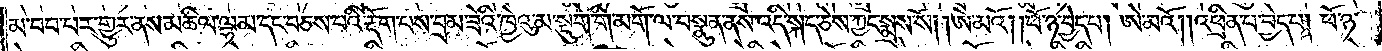མ་བབ་པར་གྱུར་ནས་མཆིལ་ལྷམ་དང་བཅས་པའི་རྡོག་པས་བྲམ་ཟེའི་ཁྱེའུ་མ་སྡུག་གི་མགོ་ལ་བསྣུན་ནས་འདི་སྐད་ཅེས་ཀྱང་སྨྲས་སོ། །ཨེ་མའོ། །ཕོ་ཉ་བྱེད་པ། ཨེ་མའོ། །འཕྲིན་པ་བྱེད་པ། ཕོ་ཉ་
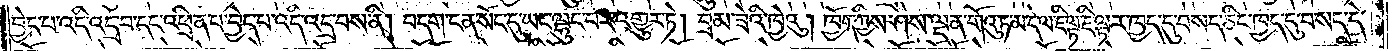བྱེད་པ་འདི་འདྲ་བ་དད་འཕྲིན་པ་བྱེད་པ་འདི་འདྲ་བས་ནི། བདག་ངན་སོང་དུ་ཡང་ལྷུང་བར་འགྱུར་ཏེ། བྲམ་ཟེའི་ཁྱེའུ། ཁྱོད་ཀྱིས་ཤེས་ལྡན་གོའུ་ཏ་མ་དེ་ལ་ཇི་ལྟ་ཇི་ལྟར་ཁྱད་དུ་བསད་ཅིང་ཁྱད་དུ་བསད་དེ་
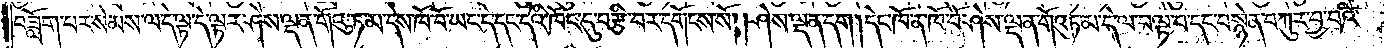བཟློག་པར་སེམས་ལ་དེ་ལྟ་དེ་ལྟར་ཤེས་ལྡན་གོའུ་ཏ་མ་དེས་ཁོ་བོ་ཡང་དེ་དང་དེའི་ཁོང་དུ་བརྩི་བར་དགོངས་སོ། །ཤེས་ལྡན་དག །དེང་ཁོ་ན་ཁོ་བོ་ཤེས་ལྡན་གོའུ་ཏ་མ་དེ་ལ་བལྟ་བ་དང་བསྙེན་བཀུར་བྱ་བའི་
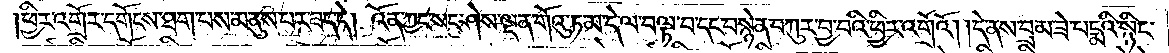།ཕྱིར་འགྲོར་དགོངས་ཐག་པས་མ་ནུས་པར་ཟད་དེ། འོན་ཀྱང་སང་ཤེས་ལྡན་གོའུ་ཏ་མ་དེ་ལ་བལྟ་བ་དང་བསྙེན་བཀུར་བྱ་བའི་ཕྱིར་འགྲོའོ། །དེ་ནས་བྲམ་ཟེ་པདྨའི་སྙིང་
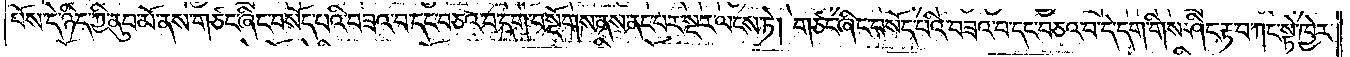པོས་དེ་ཉིད་ཀྱི་ནུབ་མོ་ནས་གཙང་ཞིང་བསོད་པའི་བཟའ་བ་དང་བཅའ་བ་དག་བསྔོགས་ནས་ནང་པར་སྔར་ལངས་ཏེ། གཙང་ཞིང་བསོད་པའི་བཟའ་བ་དང་བཅའ་བ་དེ་དག་གིས་ཤིང་རྟ་བཀང་སྟེ་ཁྱེར་
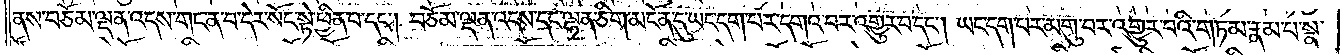ནས་བཅོམ་ལྡན་འདས་གང་ན་བ་དེར་སོང་སྟེ་ཕྱིན་པ་དང༌། བཅོམ་ལྡན་འདས་དང་ལྷན་ཅིག་མངོན་དུ་ཡང་དག་པར་དགའ་བར་འགྱུར་བ་དང༌། ཡང་དག་པར་མགུ་བར་འགྱུར་བའི་གཏམ་རྣམ་པ་སྣ་
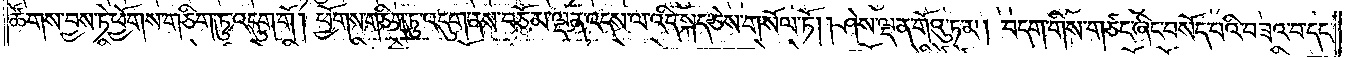ཚོགས་བྱས་ཏེ་ཕྱོགས་གཅིག་ཏུ་འདུག་གོ །ཕྱོགས་གཅིག་ཏུ་འདུག་ནས་བཅོམ་ལྡན་འདས་ལ་འདི་སྐད་ཅེས་གསོལ་ཏོ། །ཤེས་ལྡན་གོའུ་ཏ་མ། བདག་གིས་གཙང་ཞིང་བསོད་པའི་བཟའ་བ་དང་
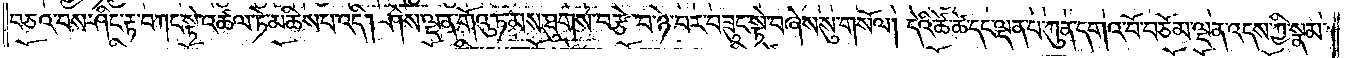བཅའ་བས་ཤིང་རྟ་བཀང་སྟེ་འཚལ་ཏེ་མཆིས་པ་འདི། ཤེས་ལྡན་གོའུ་ཏ་མས་ཐུགས་བརྩེ་བ་ཉེ་བར་བཟུང་སྟེ་བཞེས་སུ་གསོལ། དེའི་ཚེ་ཚེ་དང་ལྡན་པ་ཀུན་དགའ་བོ་བཅོམ་ལྡན་འདས་ཀྱིས་སྣམ་
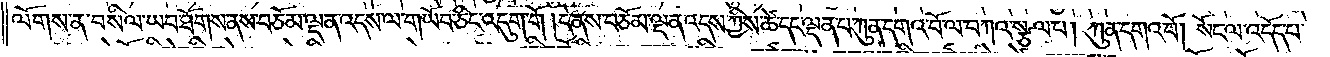ལོགས་ན་བསིལ་ཡབ་ཐོགས་ནས་བཅོམ་ལྡན་འདས་ལ་གཡོབ་ཅིང་འདུག་གོ །དེ་ནས་བཅོམ་ལྡན་འདས་ཀྱིས་ཚེ་དང་ལྡན་པ་ཀུན་དགའ་བོ་ལ་བཀའ་སྩལ་པ། ཀུན་དགའ་བོ། སོང་ལ་འདོད་པ་
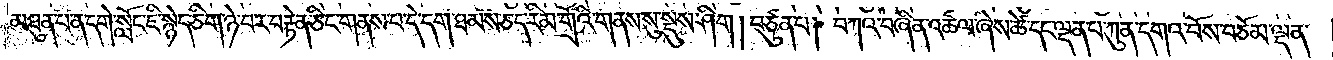མཐུན་པ་ན་དགེ་སློང་ཇི་སྙེད་ཅིག་ཉེ་བར་བརྟེན་ཅིང་གནས་པ་དེ་དག་ཐམས་ཅད་རིམ་གྲོའི་གནས་སུ་སྡུས་ཤིག །བཙུན་པ། བཀའ་བཞིན་འཚལ་ཞེས་ཚེ་དང་ལྡན་པ་ཀུན་དགའ་བོས་བཅོམ་ལྡན་
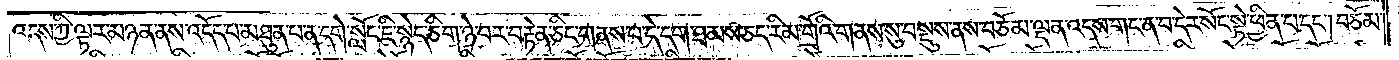འདས་ཀྱི་ལྟར་མཉན་ནས་འདོད་པ་མཐུན་པ་ན་དགེ་སློང་ཇི་སྙེད་ཅིག་ཉེ་བར་བརྟེན་ཅིང་གནས་པ་དེ་དག་ཐམས་ཅད་རིམ་གྲོའི་གནས་སུ་བསྡུས་ནས་བཅོམ་ལྡན་འདས་གང་ན་བ་དེར་སོང་སྟེ་ཕྱིན་པ་དང༌། བཅོམ་
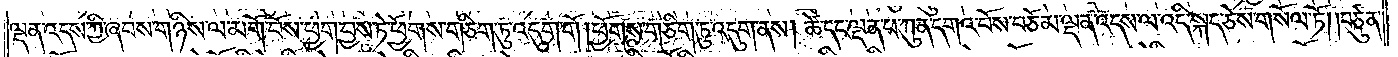ལྡན་འདས་ཀྱི་ཞབས་གཉིས་ལ་མགོ་བོས་ཕྱག་བྱས་ཏེ་ཕྱོགས་གཅིག་ཏུ་འདུག་གོ །ཕྱོགས་གཅིག་ཏུ་འདུག་ནས། ཚེ་དང་ལྡན་པ་ཀུན་དགའ་བོས་བཅོམ་ལྡན་འདས་ལ་འདི་སྐད་ཅེས་གསོལ་ཏོ། །བཙུན་
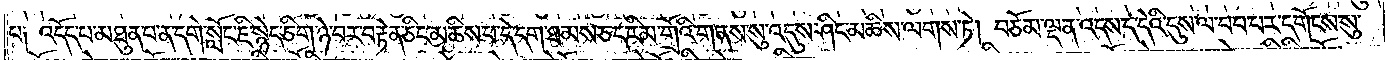པ༏ འདོད་པ་མཐུན་པ་ན་དགེ་སློང་ཇི་སྙེད་ཅིག་ཉེ་བར་བརྟེན་ཅིང་མཆིས་པ་དེ་དག་ཐམས་ཅད་རིམ་གྲོའི་གནས་སུ་འདུས་ཤིང་མཆིས་ལགས་ཏེ། བཅོམ་ལྡན་འདས་དེ་དེའི་དུས་ལ་བབ་པར་དགོངས་སུ་
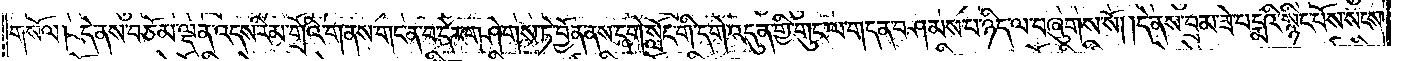གསོལ། དེ་ནས་བཅོམ་ལྡན་འདས་རིམ་གྲོའི་གནས་གང་ན་བ་དེར་གཤེགས་ཏེ་བྱོན་ནས་དགེ་སློང་གི་དགེ་འདུན་གྱི་གུང་ལ་གདན་བཤམས་པ་ཉིད་ལ་བཞུགས་སོ། །དེ་ནས་བྲམ་ཟེ་པདྨའི་སྙིང་པོས་སངས་
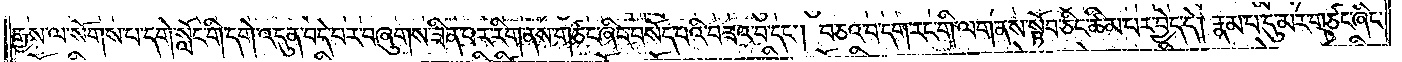རྒྱས་ལ་སོགས་པ་དགེ་སློང་གི་དགེ་འདུན་བདེ་བར་བཞུགས་ཟིན་པར་རིག་ནས་གཙང་ཞིང་བསོད་པའི་བཟའ་བ་དང༌། བཅའ་བ་དག་རང་གི་ལག་ནས་སྟོབ་ཅིང་ཚིམ་པར་བྱེད་དེ། རྣམ་པ་དུ་མར་གཙང་ཞིང་
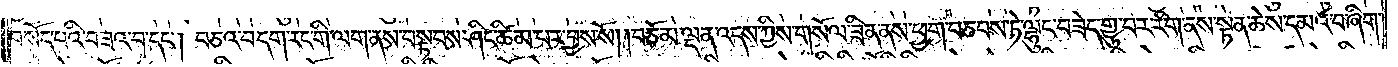བསོད་པའི་བཟའ་བ་དང༌། བཅའ་བདག་རང་གི་ལག་ནས་བསྟབས་ཤིང་ཚིམ་པར་བྱས་སོ། །བཅོམ་ལྡན་འདས་ཀྱིས་གསོལ་ཟིན་ནས་ཕྱག་བཅབས་ཏེ་ལྷུང་བཟེད་གྱུ་བར་རིག་ནས་སྟན་ཆེས་དམའ་བ་ཞིག་
